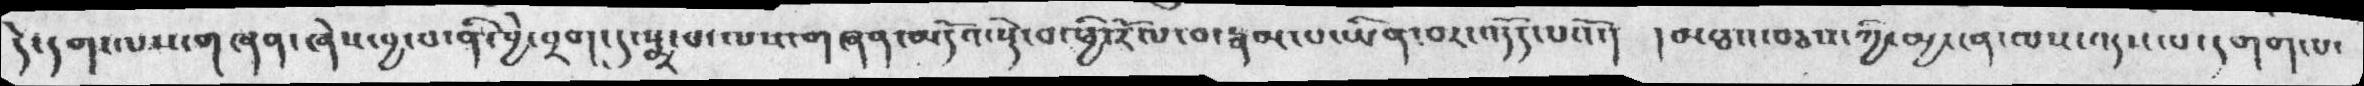དེ་དག་ལས་གཞན་ཞེས་བྱ་བ་ནི་བྱེ་བྲག་དུ་སྨྲ་བ་ལས་གཞན་མདོའ་སྡེ་བ་ཕྱི་རོལ་བ་རྣམ་པ་ཡིན་བར་འདོད་པའོ་། །མཐའ་བཅས་ཀྱི་མྱ་ངན་ལས་འདས་པ་དགག་པ་
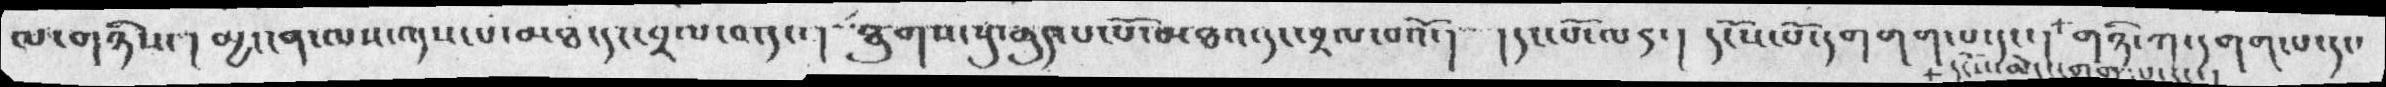ཁ་གཉིས་།  མྱ་ངན་ལས་འདས་པ་མཐ་དང་བྲལ་བ་དང་།   ཐུགས་སུ་ཆུད་པ་པོ་མཐའ་དང་བྲལ་པའོ་།  ། དང་པོ་ལན་།  དངོས་པོ་དགག་པ་དང་ ། དངོས་མེད་དགག་པ་དང་། གཉིས་ཀ་དགག་པ་དང་
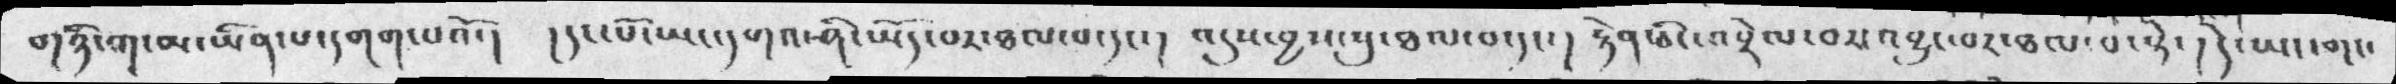གཉི་ག་མ་ཡིན་པ་དགག་པའོ་། །དང་པོ་ཡང་དགའ་ཤི་ཡོད་པར་ཐལ་བ་དང་། འདུས་བྱས་སུ་ཐལ་བ་དང་། རྟེན་ཅིང་འབྲེལ་བར་འབྱུང་བར་ཐལ་བ་སྟེ་། དེ་ཡང་གང་
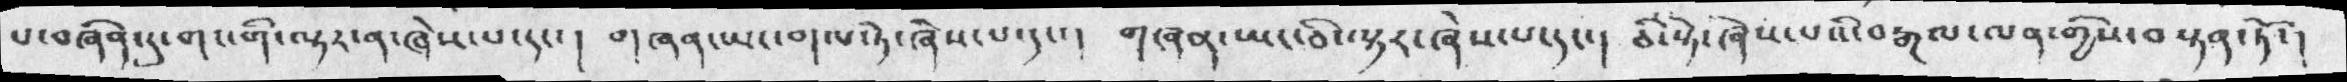པ་བཞིན་དུ་གང་གི་ལྟར་ན་ཞེས་པ་དང་།  གཞན་ཡང་གལ་ཏེ་ཞེས་པ་དང་།  གཞན་ཡང་ཅི་ལྟར་ཞེས་པ་དང་།  ཅི་སྟེ་ཞེས་པའི་བརྒལ་ལན་གྱིས་བསྟན་ཏོ་།
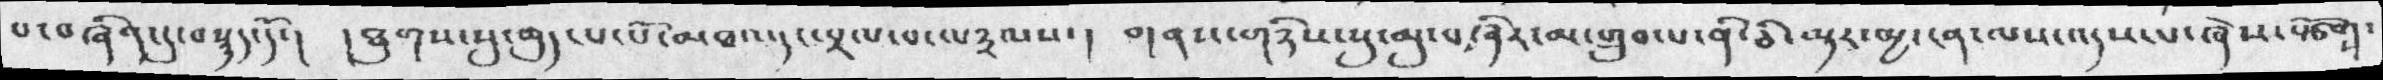པ་བཞིན་དུ་བསྙད་དོ་།   །ཐུགས་སུ་ཆུད་པ་པོ་མཐའ་དང་བྲལ་བ་ལ༣ལས་།  གནས་གཉིས་སུ་མུ་བཞིར་མ་གྲུབ་པ་ནི་ཅེ་ལྟར་མྱ་ངན་ལས་འདས་པ་ཞེས་སྩོགས་
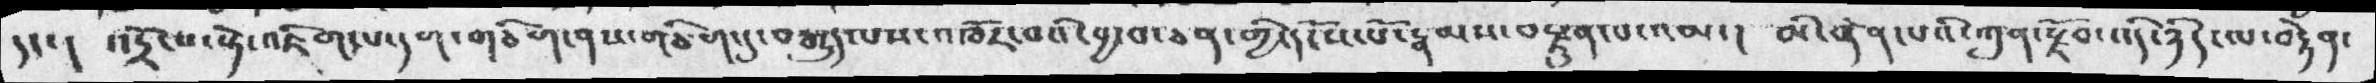དང་། འདྲོངས་སྟེ་འཇིག་པ་དག་གཅིག་ནས་གཅིག་དུ་བརྒྱུད་པས་འཁོར་བའི་བྱ་བ་ཅན་གྱི་དངོས་པོ་རྣམས་བརྫུན་པ་འམ་།  མི་ནོན་པའི་ཀུན་རྫོབ་འདི་ཉིད་ལ་བརྟེན་
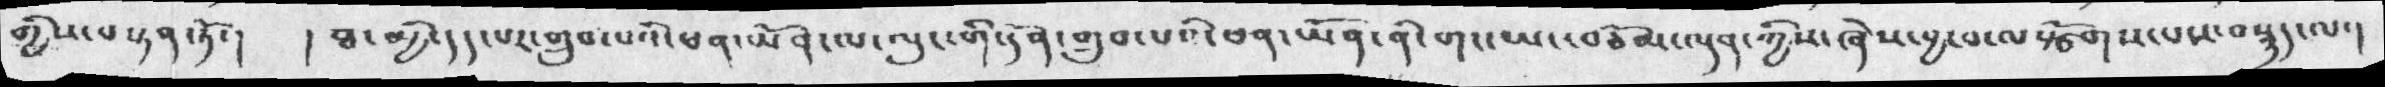གྱིས་བསྟན་ཏོ་།   །ཐ་མྱི་དད་པར་གྲུབ་པའི་ཕན་ཡོན་ལ་ལུང་གི་དོན་གྲུབ་པའི་ཕན་ཡོན་ནི་གང་ཡང་བཅོམ་ལྡན་ཀྱིས་ཞེས་བྱ་བ་ལསྩོགས་པས་བསྙད་ལ་།
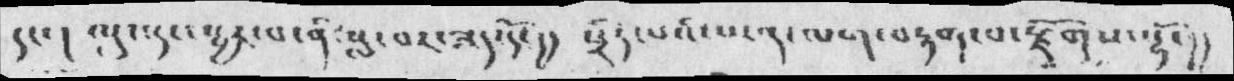དང་། ལུང་དང་སྦྱར་བ་ནི་སླ་བར་ཟད་དོ་།། སྲིད་པའི་ཡན་ལག་བརྟག་པ་རྫོགས་སྷོ་།།
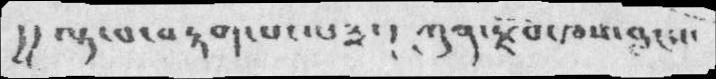།།ལྟ་བ་བརྟག་པ་ལ༣་། ཀུན་རྫོབ་ཁས་བླངས་
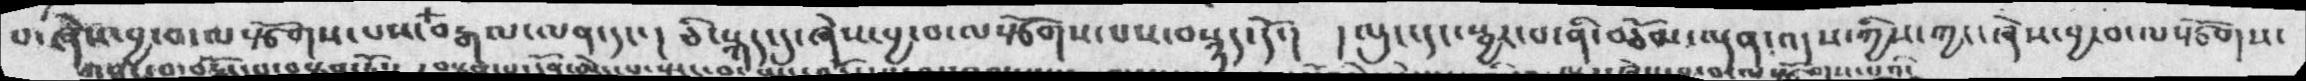པ་ཞེས་བྱ་བ་ལསྩོགས་པས་ བརྒལ་ལན་དང་། ཅི་སྐད་དུ་ཞེས་བྱ་བ་ལསྩོགས་པས་བསྙད་དོ་།  ། ལུང་དང་སྦྱར་པ་ནི་བཅོམ་ལྡན་འདུས་གྱིས་གྱང་ཞེས་བྱ་བ་ལསྩོགས་
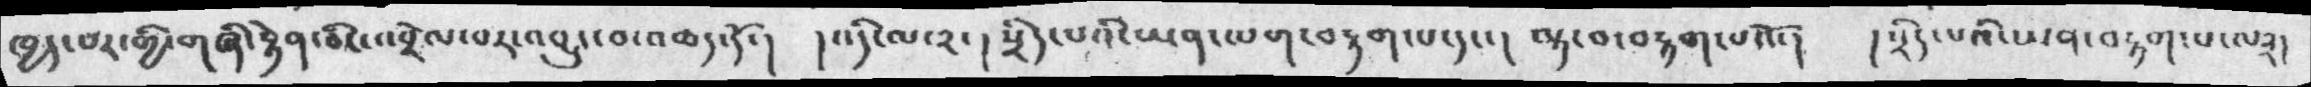ཁྱད་པར་གྱི་གཞི་རྟེན་ཅིང་འབྲེལ་བར་འབྱུང་བ་འཆད་དོ་། །འདི་ལ་༢་།སྲིད་པའི་ཡན་ལག་བརྟག་པ་དང་། ལྟ་བ་བརྟག་པའོ་། །སྲིད་པའི་ཡན་བརྟག་པ་ལ༣།
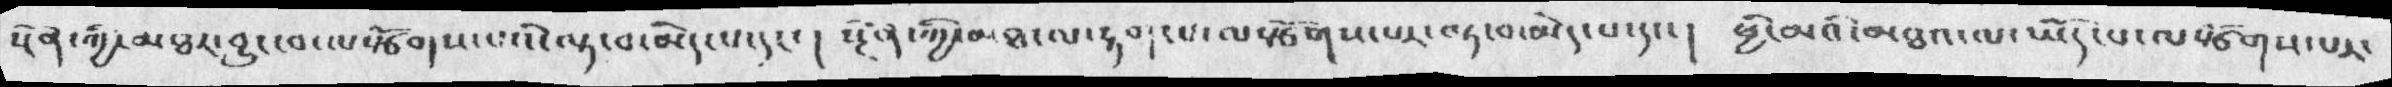སྔོན་ཀྱི་མཐར་བྱུང་བ་ལསྩོགས་པའི་ལྟ་བ་མེད་པ་དང་། སྔོན་ཀྱི་མར་ལ་རྟག་པ་ལསྩོགས་པར་ལྟ་བ་མེད་པ་དང་། ཕྱི་མའི་མཐའ་ལ་ཡོད་པ་ལསྩོགས་པར་
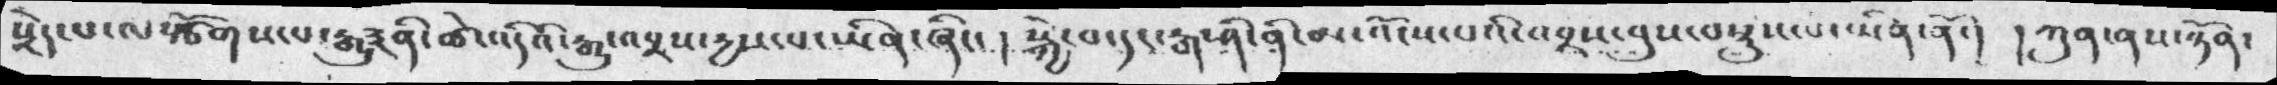སྲེད་པ་ལསྩོགས་པ་རྒྱུ༣ནི་ཚེ་འདིའི་རྒྱུ་འབྲས་རྱས་པ་ཡིན་ཞིང་། སྐྱེ་བ་དང་རྒ་ཤི་ནི་མ་འོངས་པའི་འབྲས་བུ་བསྡུས་པ་ཡིན་ནོ་། །ཀུན་ནས་ཉོན་
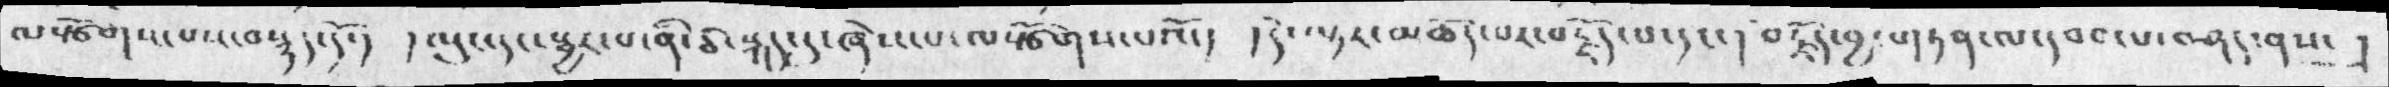ལསྩོགས་པས་བསྙད་དོ་།  །ལུང་དང་སྦྱར་པ་ནི་ཅི་སྐད་དུ་ཞེས་པ་ལསྩོགས་པའོ་།  །དེ་ལྟར་མཆོད་པར་བརྗོད་པ་དང་། བརྗོད་བྱ་གཏན་ལ་དབབ་པ་བཤད་ནས་ །
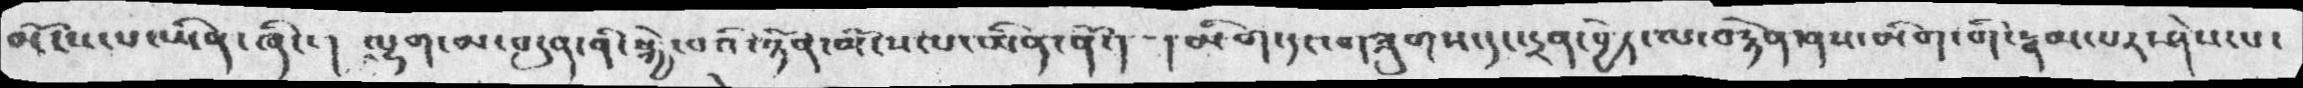མོངས་པ་ཡིན་ཞིང་། ལྷག་མ་བདུན་ནི་སྐྱེ་བའི་ཉོན་མོངས་པ་ཡིན་ནོ་།  །མིག་དང་གཟུགས་དང་དྲན་བྱེད་ལ་བརྟེན་ནས་མིག་གི་རྣམ་པར་ཤེས་པ་
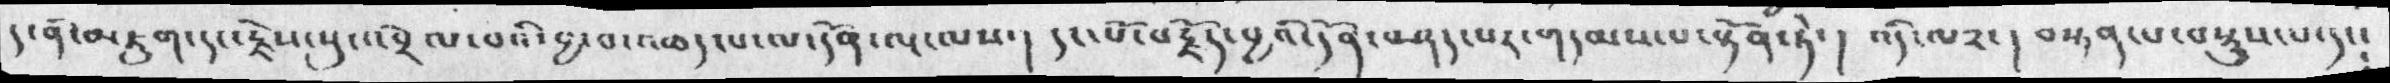ད་ནི་མཇུག་དང་རྗེས་སུ་འབྲེལ་བའི་བྱ་བ་འཆད་པ་ལ་དོན་ལྔ་ལས་།  དང་པོ་བརྗོད་བྱའི་དོན་བཤད་པར་གདམས་པ་སྟོན་ཏེ་། འདི་ལ༢་། བསྟན་པ་བསྡུས་པ་དང༴
